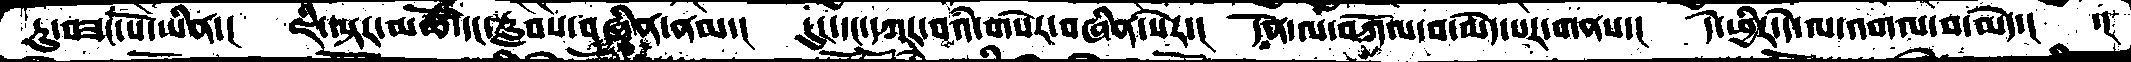ཏུ་བཟང་པོ་ཡིན་།  ཇི་ལྟར་མཚོ་དང་རླབས་བཞིན་ནམ་།  དུང་དང་དཀར་བའི་གསེར་བཞིན་སེར་།  དོན་ལ་བཀོལ་བ་མེད་པར་གནས་།  དེ་ཕྱིར་དེ་ལ་འགལ་བ་མེད་།  ་།
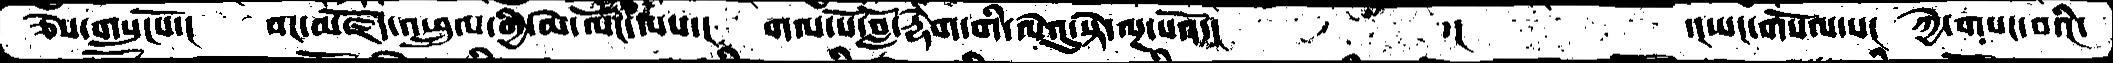ཅེས་གསུངསོ་།  བང་མཛོད་འཕྲུལ་གྱི་ལེ་ལོང་ལས་།   གལ་པོ་བློ་རྡེག་གི་ལེའུ་སྟེ་ལྔ་པའོ་།      ་།   ་།ཡང་གསོལ་པ།  ཀྱེ་གསང་བའི་
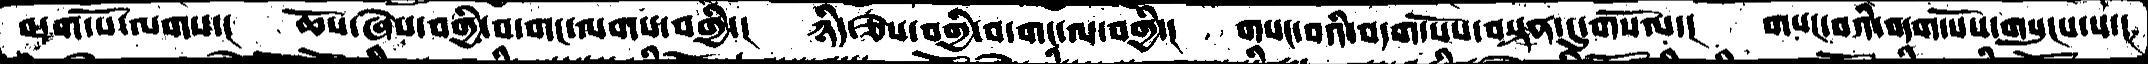བདག་པོ་ལགས་།  ཆོས་ཞེས་བགྱི་བ་གང་ལགས་བགྱི་།  ཉིད་ཅེས་བགྱི་བ་གང་ལ་བགྱི་།  གསང་བའི་བདག་པོས་བསྟན་དུ་གསོལ་།  གསང་བའི་བདག་པོས་གསུངས་པ་།
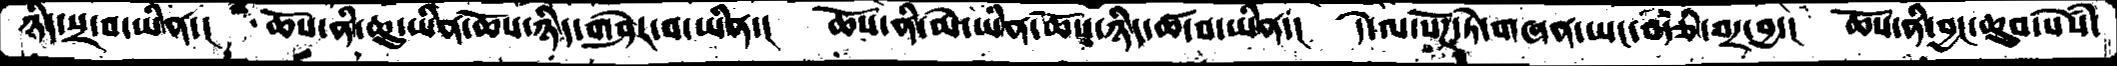ཉིད་སྲ་བ་ཡིན་།  ཆོས་ནི་ཆུ་ཡིན་ཆོས་ཉིད་གཤེར་བ་ཡིན་།  ཆོས་ནི་མེ་ཡིན་ཆོས་ཉིད་ཚ་བ་ཡིན་།  དེ་ལ་སོཌ་ཏེ་གཞན་ཡང་བརྩི་བར་བྱ་།  ཆོས་ནི་བྱང་ཆུབ་སེཾས་
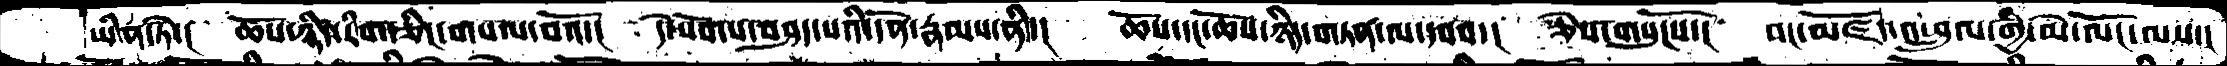ཡིན་ཏེ་།  ཆོས་ཉིད་རིག་ཅིང་གསལ་བའོ་།  དེ་སོགས་བཤད་པའི་དོན་རྣམས་ནི་།  ཆོས་དང་ཆོས་ཉིད་གཏན་ལ་དབབ་།   ཅེས་གསུངསོ་།  བང་མཛོད་འཕྲུལ་གྱི་མེ་ལོང་ལས་།
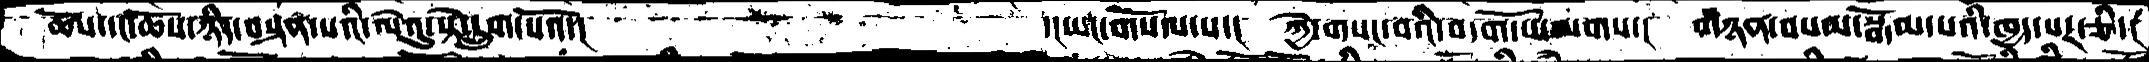ཆོས་དང་ཆོས་ཉིད་བསྟན་པའི་ལེའུ་སྟེ་དྲུག་པའོ་།          དངཡང་གསོལ་པ་། ཀྱེ་གསང་བའི་བདག་པོ་ལགས་། གཉན་བསམ་སྒོམ་པའི་ཁྱད་པར་ཅི་།
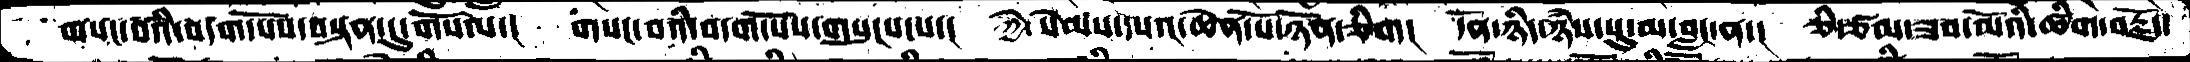གསང་བའི་བདག་པོས་བསྟན་དུ་གསོལ་།  གསང་བའི་བདག་པོས་གསུངས་པ་།  ཀྱེ་སེམས་དཔའ་ཆེན་པོ་ཉོན་ཅིག།  དོན་ཉིད་ཉཾས་སུ་མ་བླང་ན་།  ཅི་ཙམ་ཟབ་མོའི་ཚིག་བརྗོད་
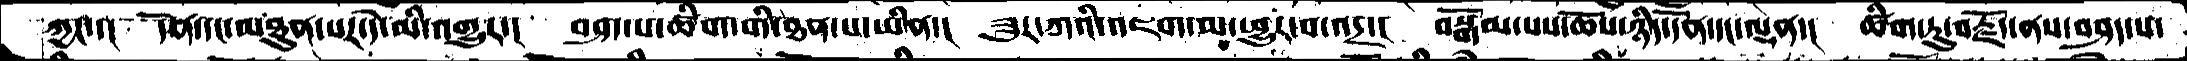ཀྱང་་།  དོན་དང་མཐུན་པར་དེ་མི་འགྱུར་།  བཤད་པ་ཚིག་གི་ཐན་པ་ཡིན་།  ཟུར་ཀའི་འཇག་མ་ཕྱུར་པ་འདྲ་།  བསྒོམ་པས་ཆོས་ཉིད་དོན་དང་ལྡན་།  ཚིག་ཏུ་བརྗོད་ནས་བཤད་པ་
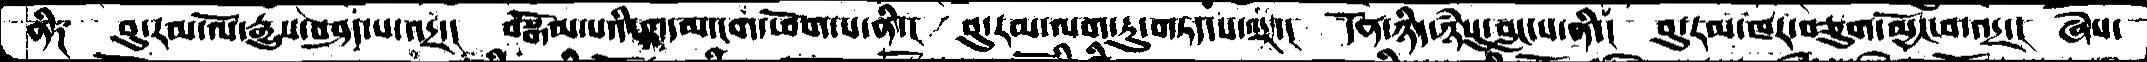ནི༑ བུ་རམ་ལོ་རྒྱུས་བཤད་པ་འདྲ་། བསྒོམ་པའི་གདམ་ངག་ཕོག་པ་ནི་།  བུ་རམ་ལག་ཏུ་གཏད་པ་འདྲ་།  དོན་ཉིད་ཉཾསུ་བླང་པ་ནི་།  བུ་རམ་ཁར་བཅུག་མྱོང་བ་འདྲ་། ཞེས
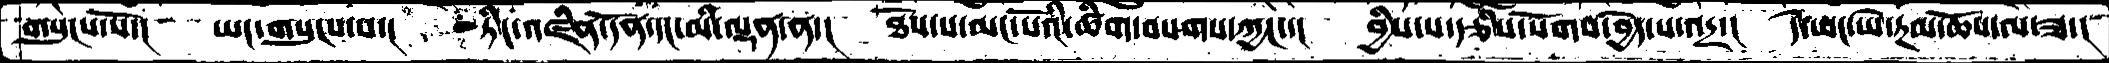གསུངསོ་།  ཡང་གསུངས་པ་།  ཏིང་འཛིན་དོན་དང་མི་ལྡན་ན་།  ཐོས་པ་མང་པོའི་ཚིག་བསགས་ཀྱང་་།  བྱིས་པ་རྩིས་སོགས་བྱེད་པ་འདྲ་།  དེ་ཡང་ཡེ་རྔམ་ཆོས་ལ་ཟ་།
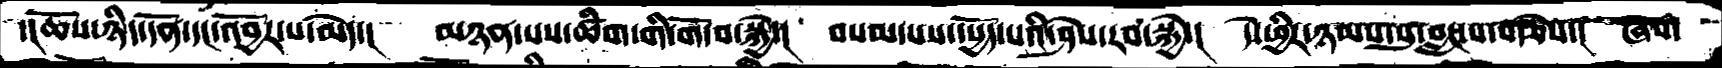་།ཆོས་ཉིད་དོན་དང་འབྱོར་པ་མེད་།  མཉན་པས་ཚིག་གི་གོ་བ་སྐྱེ་།  བསམ་པས་དསྱོད་པའི་ཤེསརབ་སྐྱེ་།  དེ་ཕྱིར་ཉམས་སུ་བླང་པ་གཅེས་།  ཞེས་
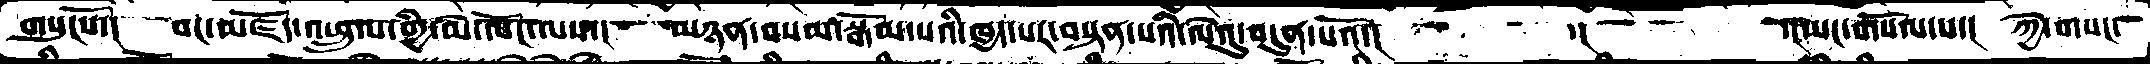གསུངསོ་།  བང་མཛོད་འཕྲུལ་གྱི་མེ་ལོང་ལས་།  མཉན་བསམ་སྒོམ་པའི་ཁྱད་པར་བསྟན་པའི་ལེའུ་བདུན་པའོ་།     ་།     ་།ཡང་གསོལ་པ་།  ཀྱེ་གསང་
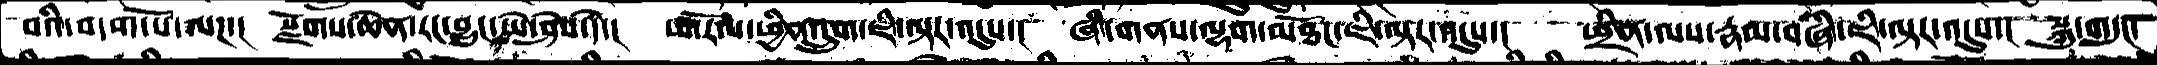བའི་བདག་པོ་ལཌ་།  སྫོགས་ཆེན་རང་བྱུང་ཡེ་ཤེས་དེ་།  ཕ་རོལ་ཕྱིན་དྲུག་ཇི་ལྟར་འདུས་།  ཞི་གནས་ལྷག་མཐོང་ཇི་ལྟར་འདུས་།  ཕྲིན་ལས་རྣམ་བཞི་ཇི་ལྟར་འདུས་།  སྐུ་གདུང་
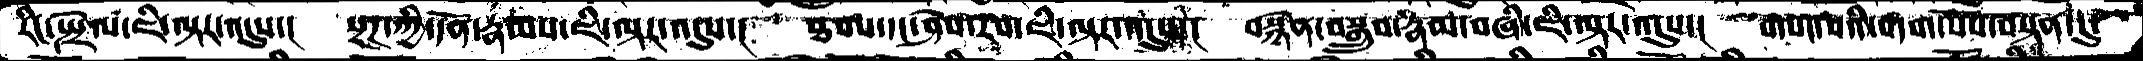རིང་སྤྲེལ་ཇི་ལྟར་འདུས་།  སྔཌ་ཀྱི་དོན་རྣམས་ཇི་ལྟར་འདུས་།  ཐབས་དང་ཤེས་རབ་ཇི་ལྟར་འདུས་།  བསྙེན་བསྒྲུབ་རྣམ་བཞི་ཇི་ལྟར་འདུས་།  གསང་བའི་བདག་པོས་བསྟན་དུ་
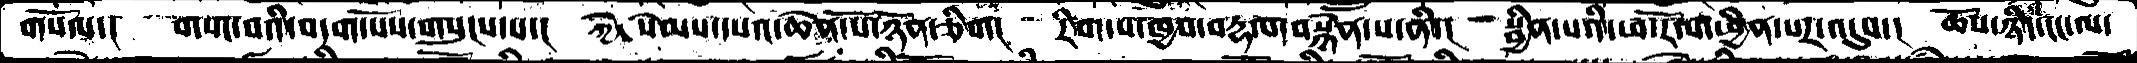གསོལ་།  གསང་བའི་བདག་པོས་གསུངས་པ་།  ཀྱེ་ སེམས་དཔའ་ཆེན་པོ་ཉོན་ཅིག།   རིག་པ་ཁྱབ་བརྡལ་བསྙེན་པ་ནི་།  སྦྱིན་པའི་ཕ་རོལ་ཕྱིན་པར་འདུས་།  ཆོས་ཉིད་ངང་ལ་
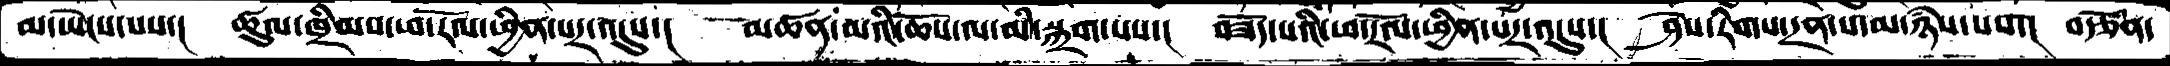མ་ཡེངས་པས་།  ཚུལ་ཁྲིམས་ཕ་རོལ་ཕྱིན་པར་འདུས་།  མཚན་མའི་ཆོས་ལ་མི་སྐྲག་པས་།  བཟོད་པའི་ཕ་རོལ་ཕྱིན་པར་འདུས་།  ཤེས་རིགས་དྲན་པ་མ་ཉཾས་པས་།  བརྩོན་
